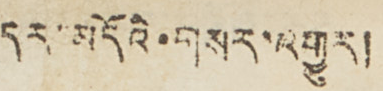དར་མདོའི་གསར་འགྱུར།
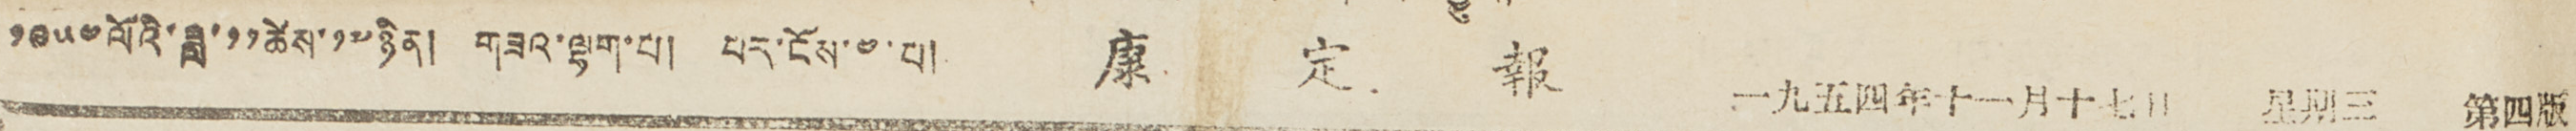༡༩༥༤ལོའི་ཟླ་༡༡ཚེས་༡༧ཉིན། གཟའ་ལྷག་པ། པར་ངོས་༤་པ། 康 定 報 一九五四年十一月十七日 星期三 第四版
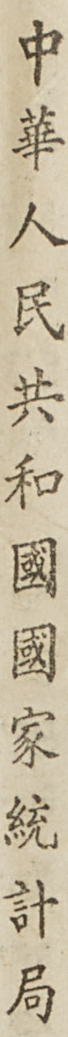中華人民共和國國家統計局
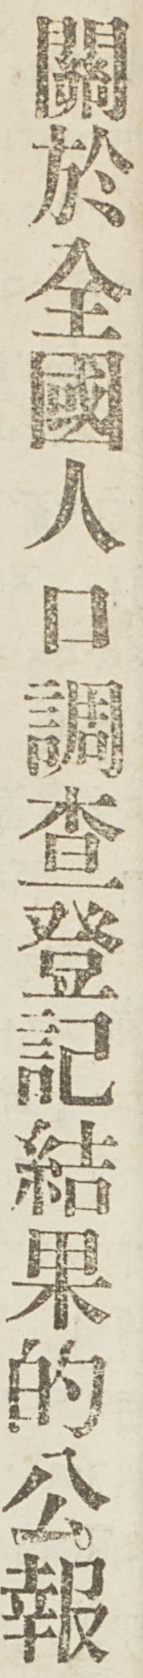關於全國人口調查登記結果的公報
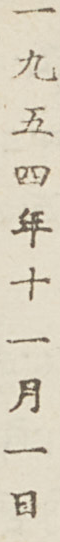一九五四年十一月一日
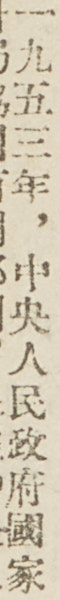一九五三年，中央人民政府國家
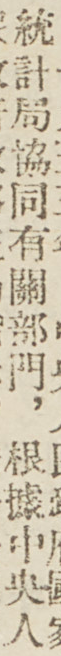統計局協同有關部門，根據中央人
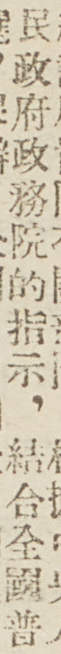民政府政務院的指示，結合全國普
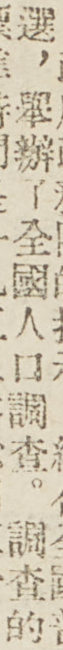選，舉辦了全國人口調查。調查的
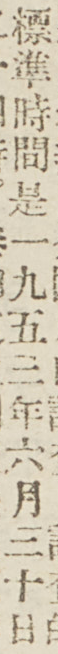標準時間是一九五三年六月三十日
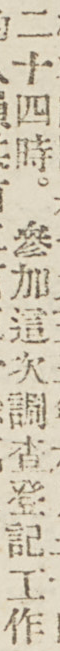二十四時。參加這次調查登記工作
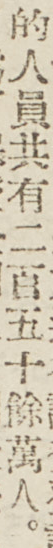的人員共有二百五十餘萬人。
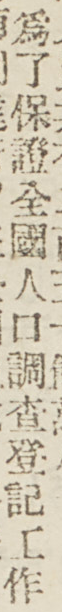爲了保證全國人口調查登記工作
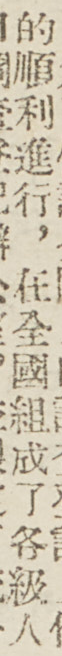的順利進行，在全國組成了各級人
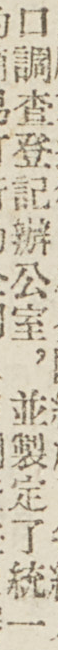口調查登記辦公室，並制定了統一
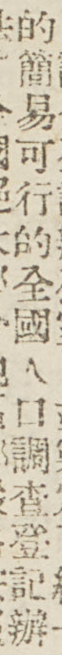的簡易可行的全國人口調查登記辦
